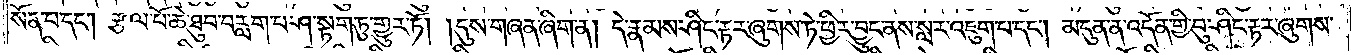སོན་པ་དང༌། རྩལ་པོ་ཆེ་ཐུབ་བརླག་པ་ཤ་སྟག་ཏུ་གྱུར་ཏོ། །དུས་གཞན་ཞིག་ན། དེ་རྣམས་ཤིང་རྟར་ཞུགས་ཏེ་ཕྱིར་བྱུང་ནས་སླར་འཇུག་པ་དང༌། མདུན་ན་འདོན་གྱི་བུ་ཤིང་རྟར་ཞུགས་
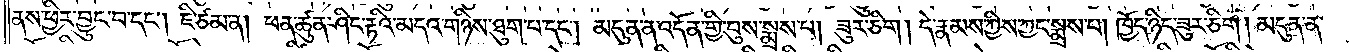ནས་ཕྱིར་བྱུང་བ་དང༌། ཇི་ཙམ་ན། ཕན་ཚུན་ཤིང་རྟའི་མདའ་གཉིས་ཐུག་པ་དང༌། མདུན་ན་འདོན་གྱི་བུས་སྨྲས་པ། ཟུར་ཅིག །དེ་རྣམས་ཀྱིས་ཀྱང་སྨྲས་པ། ཁྱོད་ཉིད་ཟུར་ཅིག །མདུན་ན་
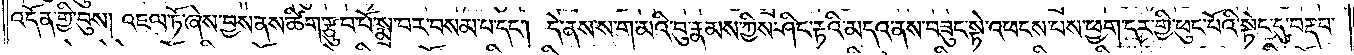འདོན་གྱི་བུས། འཇལ་ཏོ་ཞེས་བྱས་ནས་ཚིག་རྩུབ་པོ་སྨྲ་བར་བསམ་པ་དང༌། དེ་ནས་ས་ག་མའི་བུ་རྣམས་ཀྱིས་ཤིང་རྟའི་མདའ་ནས་བཟུང་སྟེ་འཕངས་པས་ཕྱག་དར་གྱི་ཕུང་པོའི་སྟེང་དུ་བརྡབ་
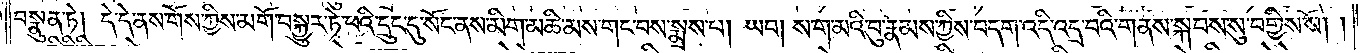བསྣུན་ཏེ། དེ་དེ་ནས་གོས་ཀྱིས་མགོ་བསྐྱུར་ཏེ་ཕའི་དྲུང་དུ་སོང་ནས་མིག་མཆི་མས་གང་བས་སྨྲས་པ། ཡབ། ས་ག་མའི་བུ་རྣམས་ཀྱིས་བདག་འདི་འདྲ་བའི་གནས་སྐབས་སུ་བགྱིས་སོ༎
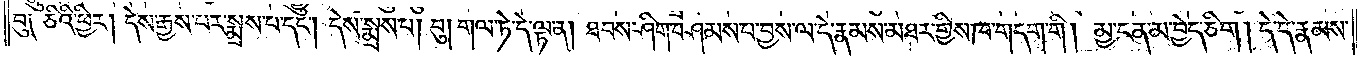བུ༑ ཅིའི་ཕྱིར། དེས་རྒྱས་པར་སྨྲས་པ་དང༌། དེས་སྨྲས་པ། བུ། གལ་ཏེ་དེ་ལྟ་ན། ཐབས་ཤིག་བཤམ་པ་བྱས་ལ་དེ་རྣམས་མཐར་གྱིས་ཁ་གདག་གི །མྱ་ངན་མ་བྱེད་ཅིག །དེ་དེ་རྣམས་
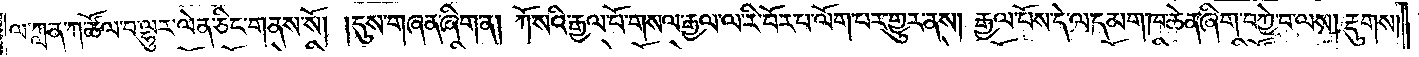ལ་ཀླན་ཀ་ཚོལ་བ་ལྷུར་ལེན་ཅིང་གནས་སོ། །དུས་གཞན་ཞིག་ན། ཀོ་སའི་རྒྱལ་པོ་གསལ་རྒྱལ་ལ་རི་བོར་པ་ལོག་པར་གྱུར་ནས། རྒྱལ་པོས་དེ་ལ་དམག་ཁ་ཆེན་ཞིག་བཀྱེ་བ་ལས། རྡུགས།
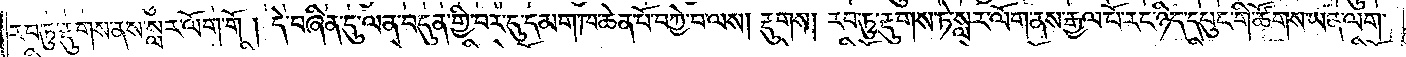རབ་ཏུ་རྡུགས་ནས་སླར་ལོག་གོ །དེ་བཞིན་དུ་ལན་བདུན་གྱི་བར་དུ་དམག་ཁ་ཆེན་པོ་བཀྱེ་བ་ལས། རྡུགས། རབ་ཏུ་རྡུགས་ཏེ་སླར་ལོག་ནས་རྒྱལ་པོ་རང་ཉིད་དཔུང་གི་ཚོགས་ཡན་ལག་
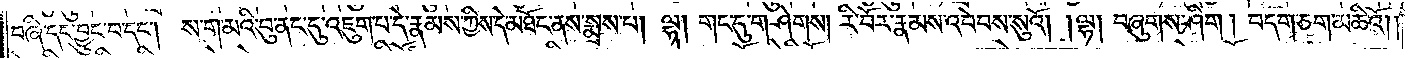བཞི་དང་བྱུང་བ་དང༌། ས་ག་མའི་བུ་ནང་དུ་འཇུག་པ་དེ་རྣམས་ཀྱིས་དེ་མཐོང་ནས་སྨྲས་པ། ལྷ། གང་དུ་གཤེགས། རི་བོར་རྣམས་འབེབས་སུའོ། །ལྷ། བཞུགས་ཤིག །བདག་ཅག་མཆིའོ༎
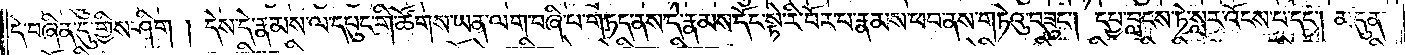དེ་བཞིན་དུ་གྱིས་ཤིག །དེས་དེ་རྣམས་ལ་དཔུང་གི་ཚོགས་ཡན་ལག་བཞི་པ་གཏད་ནས་དེ་རྣམས་དོང་སྟེ་རི་བོར་པ་རྣམས་ཕབ་ནས་གཏེའུ་བཟུང༌། དཔྱ་བླངས་ཏེ་སླར་འོངས་པ་དང༌། མདུན་
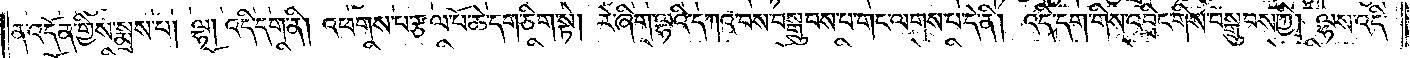ན་འདོན་གྱིས་སྨྲས་པ། ལྷ། འདི་དག་ནི། འཕགས་པ་རྩལ་པོ་ཆེ་དག་ཅིག་སྟེ། རེ་ཞིག་ལྷའི་དཀའ་བས་བསྒྲུབས་པ་གང་ལགས་པ་དེ་ནི། འདི་དག་གིས་འབྲིང་གིས་བསྒྲུབས་ཀྱི། ལྷས་འདི་
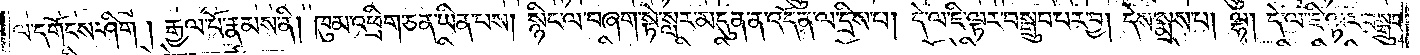ལ་དགོངས་ཤིག །རྒྱལ་པོ་རྣམས་ནི། ཁུམ་འཕྲིག་ཅན་ཡིན་པས། སྙིང་ལ་བཞག་སྟེ་སླར་མདུན་ན་འདོན་ལ་དྲིས་པ། དེ་ལ་ཇི་ལྟར་བསྒྲུབ་པར་བྱ། །དེས་སྨྲས་པ། ལྷ། དེ་ལ་ཇི་ལྟར་བསྒྲུབ་
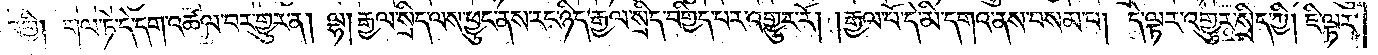པར་བགྱི། གལ་ཏེ་དེ་དག་འཚལ་བར་གྱུར་ན། ལྷ། རྒྱལ་སྲིད་ལས་ཕྱུང་ནས་རང་ཉིད་རྒྱལ་སྲིད་བགྱིད་པར་འགྱུར་རོ། །རྒྱལ་པོ་དེ་མི་དགའ་ནས་བསམ་པ། དེ་ལྟར་འགྱུར་སྲིད་ཀྱི། ཇི་ལྟར་
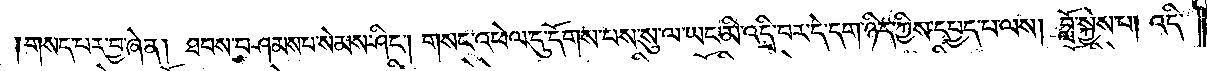གསད་པར་བྱ་ཞེ་ན། ཐབས་བཤམས་པ་སེམས་ཤིང༌། གསང་འཕེལ་དུ་དོགས་པས་སུ་ལ་ཡང་མི་འདྲི་བར་དེ་དག་ཉིད་ཀྱིས་དཔྱད་པ་ལས། བློ་སྐྱེས་པ། འདི་
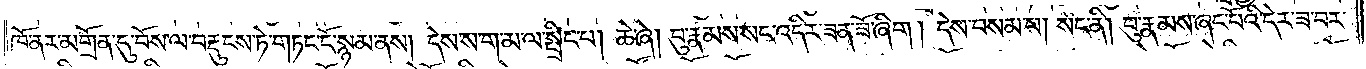ཁོ་ནར་མགྲོན་དུ་བོས་ལ་བརྡུངས་ཏེ་གཏང་ངོ་སྙམ་ནས། དེས་ས་ག་མ་ལ་སྤྲིང་པ། ཆེ་ཞེ། བུ་རྣམས་སང་འདིར་ཟན་ཟོ་ཞིག །དེས་བསམ་པ། སང་ནི། བུ་རྣམས་ཞང་པོའི་དེར་ཟ་བར་
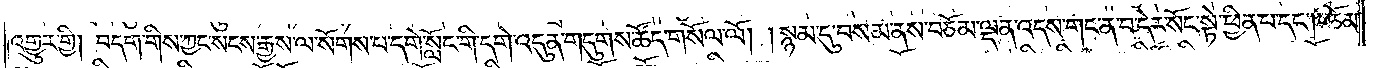འགྱུར་གྱི། བདག་གིས་ཀྱང་སངས་རྒྱས་ལ་སོགས་པ་དགེ་སློང་གི་དགེ་འདུན་གདུགས་ཚོད་གསོལ་ལོ། །སྙམ་དུ་བསམ་ནས་བཅོམ་ལྡན་འདས་གང་ན་བ་དེར་སྟོང་སྟེ་ཕྱིན་པ་དང༌། བཅོམ་
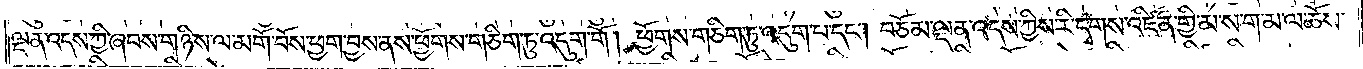ལྡན་འདས་ཀྱི་ཞབས་གཉིས་ལ་མགོ་བོས་ཕྱག་བྱས་ནས་ཕྱོགས་གཅིག་ཏུ་འདུག་གོ །ཕྱོགས་གཅིག་ཏུ་འདུག་པ་དང༌། བཅོམ་ལྡན་འདས་ཀྱིས་རི་དྭགས་འཛིན་གྱི་མ་ས་ག་མ་ལ་ཆོས་
